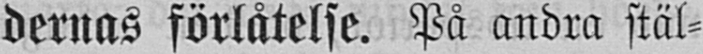dernas förlåtelse. På andra stäl-
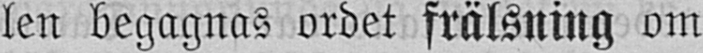len begagnas ordet frälsning om
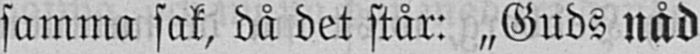samma sak, då det står: „Guds nåd
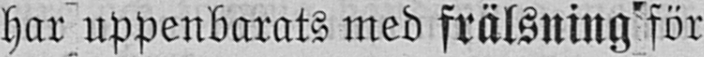har uppenbarats med frälsning för
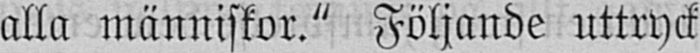alla människor." Följande uttryck
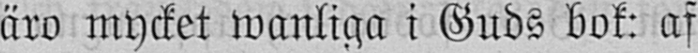äro mycket wanliga i Guds bok: af
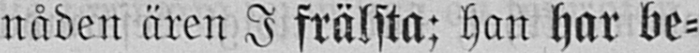nåden ären I frälsta; han har be-
